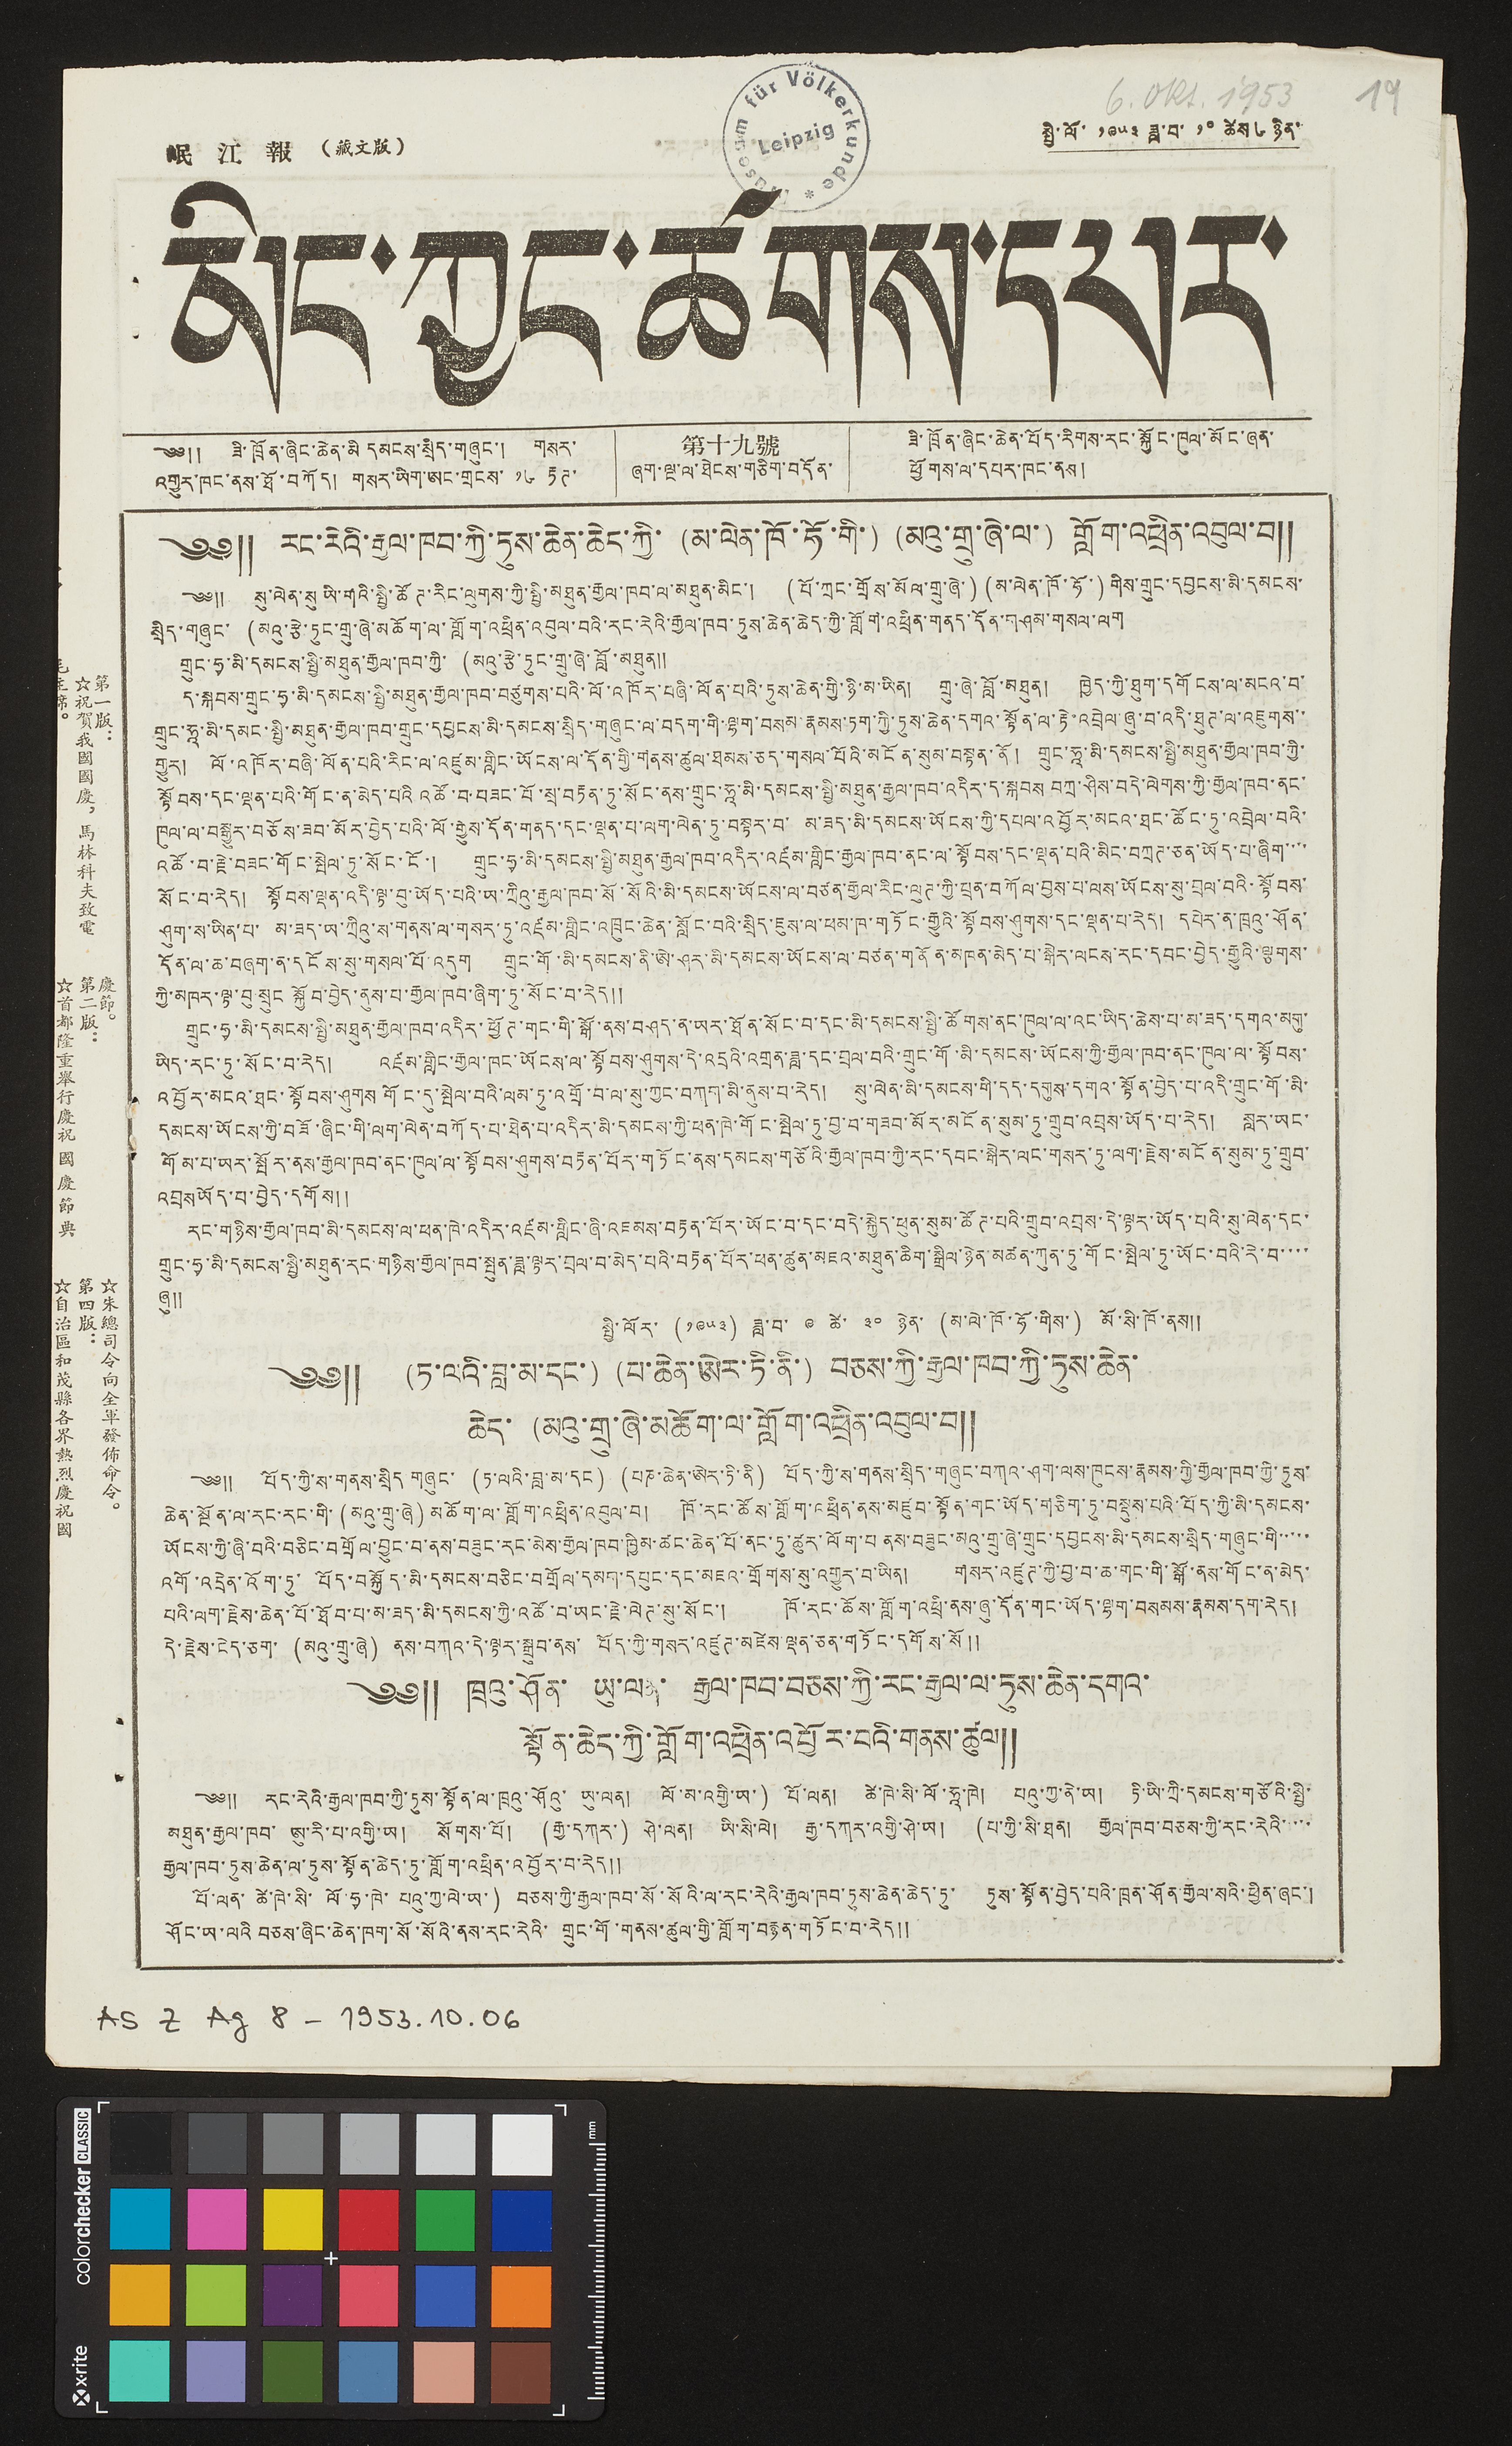岷 江 報 （藏文版） སྤྱི་ལོ་ ༡༩༥༣ ཟླ་བ་ ༡༠ ཚེས ༦ ཉིན་
མིང་ཀྱང་ཚགས་དཔར་
第一版：
☆祝賀我國國慶，馬林科夫致電
毛主席。
慶節。
第二版：
☆首都隆重舉行慶祝國慶節典
☆朱總司令向全軍發佈命令。
第四版：
☆自治區和茂縣各界熱烈慶祝國
༄༅༎ རང་རེའི་རྒྱལ་ཁབ་ཀྱི་ཏུས་ཆེན་ཆེད་ཀྱི་ (མ་ལེན་ཁོ་ཧོ་གི་) (མའུ་གྲུ་ཞེ་ལ་) གློག་འཕྲིན་འབུལ་བ༎
༄༅༎ སུ་ལེན་སུ ཡི་གའི་སྤྱི་ཚོཊ་རིང་ལུགས་ཀྱི་སྤྱི་མཐུན་རྒྱལ་ཁབ་ལ་མཐུན་མིང་། (པོ་ཀྲང་གྲོས་མོལ་གྲུ་ཞེ་) (མ་ལེན་ཁོ་ཧོ་) གིས་གུང་དབྱངས་མི་དམངས་
སྲིད་གཞུང་ (མའུ་རྩེ་ཏུང་གྲུ་ཞེ་མཆོག་ལ་གློག་འཕྲིན་འབུལ་བའི་རང་རེའི་རྒྱལ་ཁབ་ཏུས་ཆེན་ཆེད་ཀྱི་གློག་འཕྲིན་གནད་དོན་གཤམ་གསལ་ལག
གྲུང་ཧྭ་མི་དམངས་སྤྱི་མཐུན་རྒྱལ་ཁབ་ཀྱི་ (མའུ་རྩེ་ཏུང་གྲུ་ཞེ་བློ་མཐུན༎
ད་སྐབས་གྲུང་ཧྭ་མི་དམངས་སྤྱི་མཐུན་རྒྱལ་ཁབ་བཙུགས་པའི་ལོ་འཁོར་བཞི་ལོན་པའི་དུས་ཆེན་གྱི་ཉི་མ་ཡིན། གྲུ་ཞེ་བློ་མཐུན། ཁྱེད་ཀྱི་ཐུག་དགོངས་ལ་མངའ་བ་
གྲུང་ཧཱ་མི་དམངས་སྤྱི་མཐུན་རྒྱལ་ཁབ་གྲུང་དབྱངས་མི་དམངས་སྲིད་གཞུང་ལ་བདག་གི་ལྷག་བསམ་རྣམས་ཏག་ཀྱི་ཏུས་ཆེན་དགའ་སྟོན་ལ་རྟེ་འབྲེལ་ཞུ་བ་འདི་ཐུཊ་ལ་འཇུགས་་
གྱུར། ལོ་འཁོར་བཞི་ལོན་པའི་རིང་ལ་འཛུམ་གླིང་ཡོངས་ལ་དོན་གྱི་གནས་ཚུལ་ཐམས་ཅད་གསལ་པོའི་མངོན་སུམ་བསྟན་ནོ། གྲུང་ཧཱ་མི་དམངས་སྤྱི་མཐུན་རྒྱལ་ཁབ་ཀྱི་
སྟོབས་དང་ལྡན་པའི་གོང་ན་མེད་པའི འཚོ་བ་བཟང་པོ་བརྟན་ཏུ་སོང་ནས་གྲུང་ཧཱ་མི་དམངས་སྤྱི་མཐུན་རྒྱལ་ཁབ་འདིར་ད་སྐབས བཀྲ་ཤིས་བདེ་ལེགས་ཀྱི་རྒྱལ་ཁབ་ནང་
ཁུལ་ལ་བསྒྱུར་བཅོས་ཟབ་མོར་བྱེད་པའི་ལོ་རྒྱུས་དོན་གནད་དང་ལྡན་པ་ལག་ལེན་ཏུ་བསྟར་བ་ མ་ཟད་མི་དམངས་ཡོངས་ཀྱི་དཔལ་འབྱོར་མངའ་ཐང་ཚོང་ཏུ་འབྲེལ་བའི་
འཚོ་བ་རྗེ་བཟང་གོང་སྤེལ་ཏུ་སོང་ངོ་། གྲུང་ཧྭ་མི་དམངས་སྤྱི་མཐུན་རྒྱལ་ཁབ་འདིར་འཛམ་གླིང་རྒྱལ་ཁབ་ནང་ལ་སྟོབས་དང་ལྡན་པའི་མིང་བཀྲཊ་ཅན་ཡོད་པ་ཞིག་་་་
སོང་བ་རེད། སྟོབས་ལྡན་འདི་ལྟ་བུ་ཡོད་པའི་ཡ་ཀྲིའུ་རྒྱལ་ཁབ་སོ་སོའི་མི་དམངས་ཡོངས་ལ་བཙན་རྒྱལ་རིང་ལུཊ་ཀྱི་པྲན་བཀོལ་བྱས་པ་ལས་ཡོངས་སུ་བྲལ་བའི་སྟོབས་
ཤུག་ས་ཡིན་པ་ མ་ཟད་ཡ་ཀྲིའུ་ས་གནས་ལ་གསར་ཏུ་འཛམ་གླིང་འཁྲུང་ཆེན་སློང་བའི་སྲིད་ཇུས་ལ་ཕམ་ཁ་གཏོང་རྒྱུའི་སྟོབས་ཤུགས་དང་ལྡན་པ་རེད། དཔེར་ན་ཁྲའུ་ཤོན་
དོན་ལ་ཆ་བཞག་ན་དངོས་སུ་གསལ་པོ་འདུག གྲུང་གོ་མི་དམངས་ནི་ཨེ་ཤར་མི་དམངས་ཡོངས་ལ་བཙན་གནོན་མཁན་མེད་པ་སྒེར་ལངས་རང་དབང་བྱེད་རྒྱུའི་ལྕགས་
ཀྱི་མཁར་ལྟ་བུ སྲུང སྐྱོབ་བྱེད་ནུས་པ་རྒྱལ་ཁབ་ཞིག་ཏུ་སོང་བ་རེད༎
གྲུང་ཧྭ་མི་དམངས་སྤྱི་མཐུན་རྒྱལ་ཁབ་འདིར་ཕྱོཊ་གང་གི་སྒོ་ནས་བཤད་ན་ཡར་ཐོན་སོང་བ་དང་མི་དམངས་སྤྱི་ཚོགས་ནང་ཁུལ་ལ་འང་ཡིད་ཆེས་པ་མ་ཟད་དགའ་མགུ་
ཡིད་རང་ཏུ་སོང་བ་རེད། འཛམ་གླིང་རྒྱལ་ཁང་ཡོངས་ལ་སྟོབས་ཤུགས་དེ་འདྲའི་འགན་ཟླ་དང་བྲལ་བའི་གྲུང་གོ་མི་དམངས་ཡོངས་ཀྱི་རྒྱལ་ཁབ་ནང་ཁུལ་ལ་སྟོབས་
འབྱོར་མངའ་ཐང་སྟོབས་ཤུགས གོང་དུ་སྤེལ་བའི་ལམ་ཏུ་འགྲོ་བ་ལ་སུ་ཀྱང་བཀག་མི་ནུས་བ་རེད། སུ་ལེན་མི་དམངས་གི་དད་དགུས་དགའ་སྟོན་བྱེད་པ་འདི་གྲུང་གོ་མི་
དམངས་ཡོངས་ཀྱི་བཟོ་ཞིང་གི་ལག་ལེན་བཀོད་པ་ཐེན་པ་འདིར་མི་དམངས་ཀྱི་ཕན་ཁེ་གོང་སྤེལ་ཏུ་བྱ་བ་གཟབ་མོར་མངོན་སུམ་ཏུ་གྲུབ་འབྲས་ཡོད་པ་རེད། སླར་ཡང་
གོམ་པ་ཡར་སྤོར་ནས་རྒྱལ་ཁབ་ནང་ཁུལ་ལ་སྟོབས་ཤུགས་བརྟན་པོར་གཏོང་ནས་དམངས་གཙོའི་རྒྱལ་ཁབ་ཀྱི་རང་དབང་སྒེར་ལང་གསར་ཏུ་ལག་རྗེས་མངོན་སུམ་ཏུ་གྲུབ་
འབྲས ཡོད་པ་བྱེད་དགོས༎
རང་གཉིས་རྒྱལ་ཁབ་མི་དམངས་ལ་ཕན་ཁེ་འདིར་འཛམ་གླིང་ཞི་འཇམས་བརྟན་པོར་ཡོང་བ་དང་བདེ་སྐྱེད་ཕུན་སུམ་ཚོཊ་པའི་གྲུབ་འབྲས་དེ་ལྟར་ཡོད་པའི་སུ་ལེན་དང་
གྲུང་ཧྭ་མི་དམངས་སྤྱི་མཐུན་རང་གཉིས་རྒྱལ་ཁབ་སྤུན་ཟླ་ལྟར་བྲལ་བ་མེད་པའི་བརྟན་པོར་ཕན་ཚུན་མཇའ་མཐུན་ཆིག་སྒྲིལ་ཉེན་མཚན་ཀུན་ཏུ་གོང་སྤེལ་ཏུ་ཡོང་བའི་རེ་བ་་་་
ཞུ༎
སྤྱི་ལོར་ (༡༩༥༣) ཟླ་བ་ ༩ ཚེ་ ༣༠ ཉིན་ (མ་ལེ་ཁོ་ཧོ་གིས་) མོ་སི་ཁོ་ནས༎
༄༅༎ (ཏ་ལའི་བླ་མ་དང་) (པ་ཆེན་ཨེར་ཏི་ནི་) བཅས་ཀྱི་རྒྱལ་ཁབ་ཀྱི་ཏུས་ཆེན་
ཆེད་ (མའུ་གྲུ་ཞེ་མཆོག་ལ་གློག་འཕྲིན་འབུལ་བ༎
༄༅༎ བོད་ཀྱི་ས་གནས་སྲིད གཞུང་ (ཏ་ལའི་བླ་མ་དང་) (པཎ་ཆེན་ཨེར་ཏི་ནི་) བོད་ཀྱི་ས་གནས་སྲིད་གཞུང་བཀའ་ཤག་ལས་ཁུངས་རྣམས་ཀྱི་རྒྱལ་ཁབ་ཀྱི་ཏུས་
ཆེན་སྔོན་ལ་རང་རང་གི་ (མའུ་གྲུ་ཞེ) མཆོག་ལ་གློག་འཕྲིན་འབུལ་བ། ཁོ་རང་ཚོས་གློག་འཕྲིན་ནས་མཛུབ་སྟོན་གང་ཡོད་གཅིག་ཏུ་བསྡུས་པའི་བོད་ཀྱི་མི་དམངས་
ཡོངས་ཀྱི་ཞི་བའི་བཅིང་བགྲོལ་བྱུང་བ་ནས་བཟུང་རང་མིས་རྒྱལ་ཁབ་ཁྱིམ་ཚང་ཆེན་པོ་ནང་ཏུ་ཚུར་ལོག་བ ནས་བཟུང་མའུ་གྲུ་ཞེ་གྲུང་དབྱང་མི་དམངས་སྲིད་གཞུང་གི་་་་་
འགོ་འདྲེན་འོག་ཏུ་ བོད་བསྐྱོད་མི་དམངས་བཅིང་བགྲོལ་དམག་དཔུང་དང་མཇའ་གྲོགས་སུ་འགྱུར་བ་ཡིན། གསར་འཛུཊ་ཀྱི་བྱ་བ་ཆ་གང་གི་སྒོ་ནས་གོང་ན་མེད་
པའི་ལག་རྗེས་ཆེན་པོ་ཐོབ་པ་མ་ཟད་མི་དམངས་ཀྱི་འཚོ་བ་ཡང་རྗེ་ལེཊ་སུ་སོང་། ཁོ་རང་ཆོས་གློག་འཕྲི་ནས་ཞུ་དོན་གང་ཡོད་ལྷག་བསམས་རྣམས་དག་རེད།
དེ་རྗེས་ངེད་ཅག་ (མའུ་གྲུ་ཞེ) ནས་བཀའ་དེ་ལྟར་སྒྲུབ་ནས་ བོད་ཀྱི་གསར་འཛུཊ་མཛེས་ལྡན་ཅན་གཏོང་དགོས་སོ༎
༄༅༎ ཁྲའུ་ཤོན་ ཡུ་ལན་ རྒྱལ་ཁབ་བཅས་ཀྱི་རང་རྒྱལ་ལ་ཏུས་ཆེན་དགའ་
སྟོན་ཆེད་ཀྱི་གློག་འཕྲིན་འབྱོར་བའི་གནས་ཚུལ༎
༄༅༎ རང་རེའི་རྒྱལ་ཁབ་ཀྱི་ཏུས་སྟོན་ལ་ཁྲའུ་ཤོའུ་ ཡུ་ལན། ལོ་མ་འགྱི་ཡ་) པོ་ལན། ཚེ་ཁེ་སི་ལོ་ཧཱ་ཁེ། པའུ་ཀྱ་ནེ་ཡ། ཏི་ཡི་ཀྲི་དམངས་གཙོའི་སྤྱི་
མཐུན་རྒྱལ་ཁབ་ ཨུ་རི་པ་འགྱི་ཡ། སོགས་པོ། (རྒྱ་དཀར་) ཤེ་ལན། ཡི་སི་ལེ། རྒྱ་དཀར་འགྱི་ཤེ་ཡ། (པ་ཀྱི་སི་ཐན། རྒྱལ་ཁབ་བཅས་ཀྱི་རང་རེའི་་་་་
རྒྱལ་ཁབ་ཏུས་ཆེན་ལ་ཏུས་སྟོན་ཆེད་ཏུ་གློག་འཕྲིན་འབྱོར་བ་རེད༎
པོ་ལན་ ཚེ་ཁེ་སི་ ལོ་ཧྭ་ཁེ་ པའུ་ཀྱ་ལེ་ཡ་) བཅས་ཀྱི་རྒྱལ་ཁབ་སོ་སོའི་ལ་རང་རེའི་རྒྱལ་ཁབ་ཏུས་ཆེན་ཆེད་ཏུ་ ཏུས་སྟོན་བྱེད་པའི་ཁྲན་ཤོན རྒྱལ་སའི་ཕྱིན་ཞང་།
ཤོང་ཡ་ལའི བཅས་ཞིང་ཆེན་ཁག་སོ་སོའི་ནས་རང་རེའི་ གྲུང་གོ་གནས་ཚུལ་གྱི་གློག་བརྙན་གཏོང་བ་རེད༎
